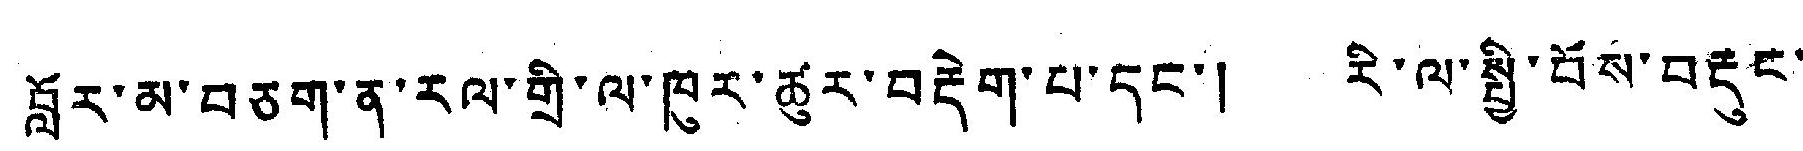བློར་མ་བཅག་ན་རལ་གྱི་ལ་ཁུར་ཚུར་བརྡེག་པ་དང་། རི་ལ་སྤྱི་བོས་བརྡུང་
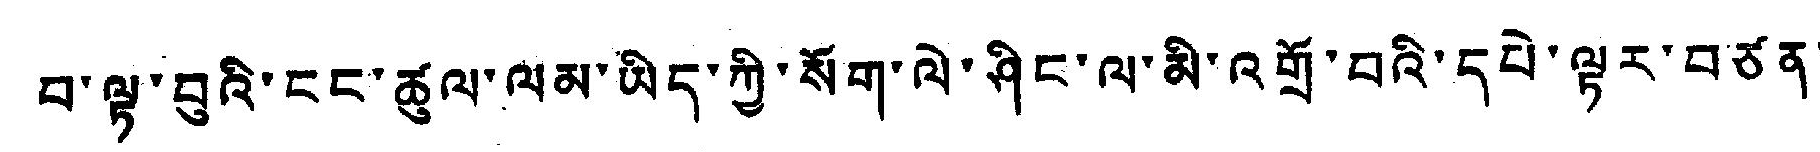བ་ལྟ་བུའི་ངང་ཚུལ་ལམ་ཡིད་ཀྱི་སོག་ལེ་ཤིང་ལ་མི་འགྲོ་བའི་དཔེ་ལྟར་བཙན་
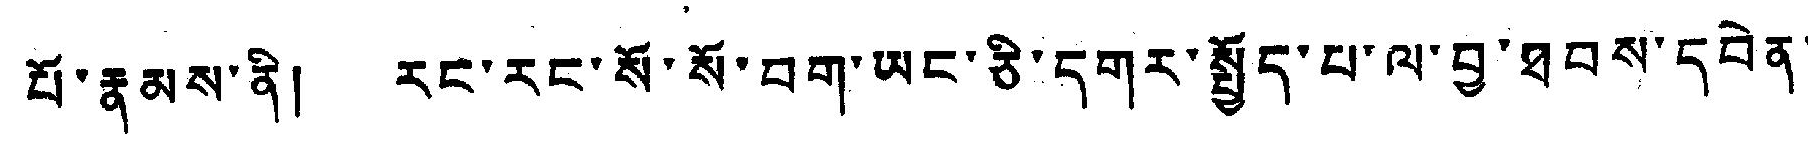པོ་རྣམས་ནི། རང་རང་སོ་སོ་བག་ཡང་ཅི་དགར་སྤྱོད་པ་ལ་བྱ་ཐབས་དབེན་
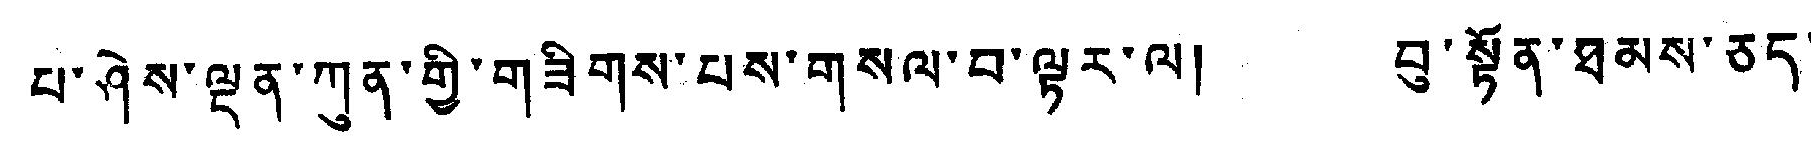པ་ཤེས་ལྡན་ཀུན་གྱི་གཟིགས་པས་གསལ་བ་ལྟར་ལ། བུ་སྟོན་ཐམས་ཅད་
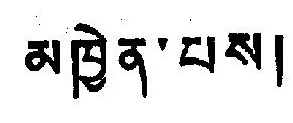མཁྱེན་པས།
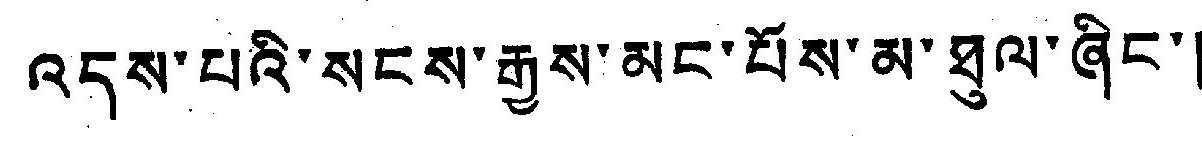འདུས་པའི་སངས་རྒྱས་མང་པོས་མ་ཐུལ་ཞིང་།
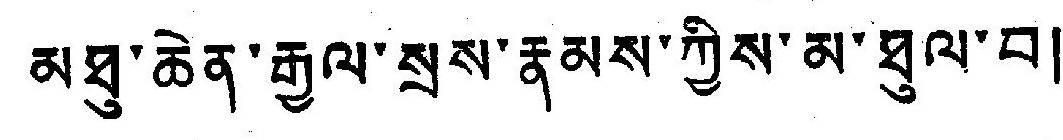མཐུ་ཆེན་རྒྱལ་སྲས་རྣམས་ཀྱིས་མ་ཐུལ་བ།
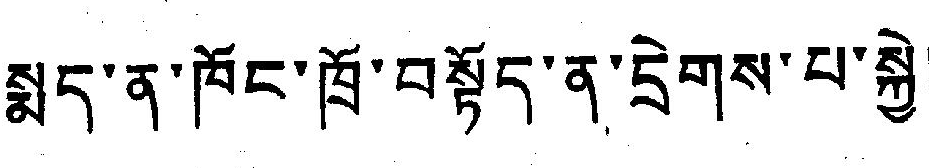སྨད་ན་ཁོང་ཁྲོ་བསྟོད་ན་དྲེགས་པ་སྐྱེ།
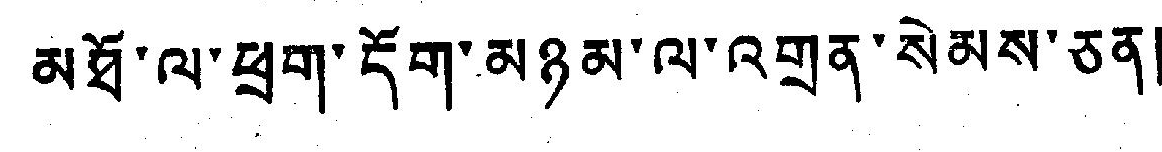མཐོ་ལ་ཕྲག་དོག་མཉམ་ལ་འགྲན་སེམས་ཅན།
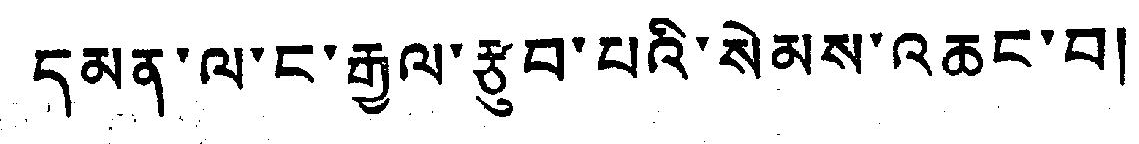དམན་ལ་ང་རྒྱལ་རྩུབ་པའི་སེམས་འཆང་བ།
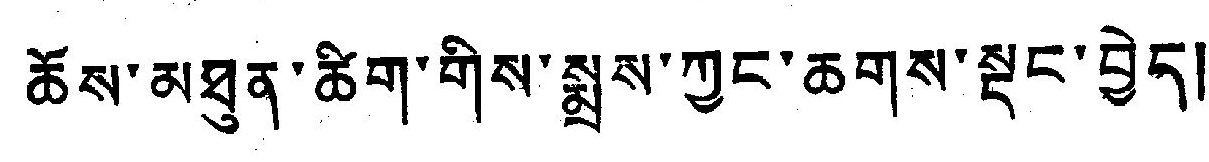ཆོས་མཐུན་ཚིག་གིས་སྨྲས་ཀྱང་ཆགས་སྡང་བྱེད།
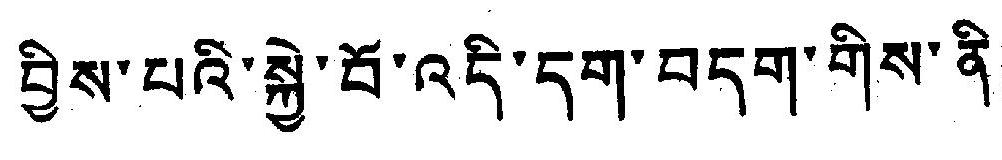བྱིས་པའི་སྐྱེ་བོ་འདི་དག་བདག་གིས་ནི།
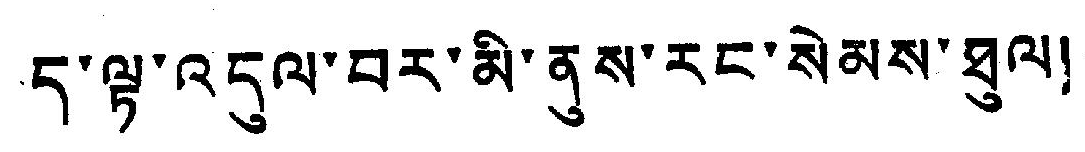ད་ལྟ་འདུལ་བར་མི་ནུས་རང་སེམས་ཐུལ།
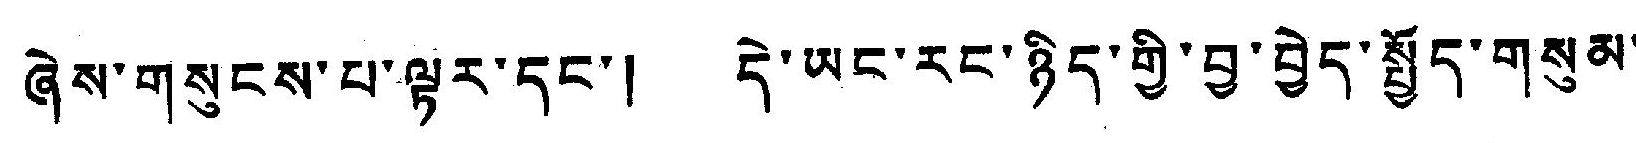ཞེས་གསུངས་པ་ལྟར་དང་། དེ་ཡང་རང་ཉིད་གྱི་བྱ་བྱེད་སྤྱོད་གསུམ་
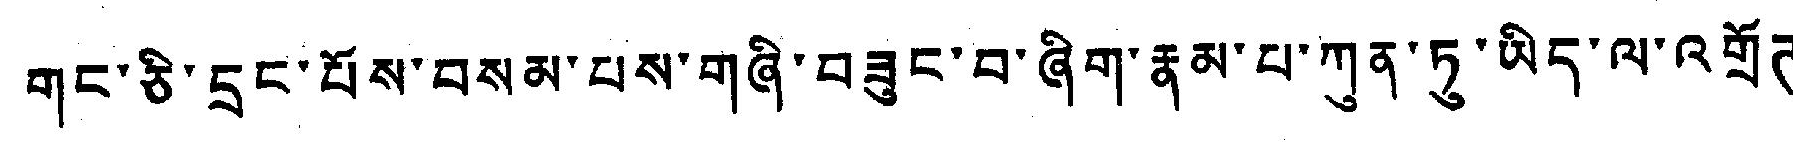གང་ཅི་དྲང་པོས་བསམ་པས་གཞི་བཟུང་བ་ཞིག་རྣམ་པ་ཀུན་ཏུ་ཡིད་ལ་འགྲོཊ་
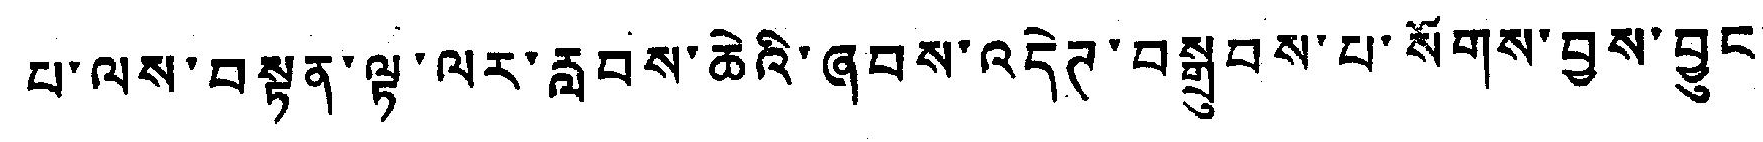པ་ལས་བསྟན་ལྷ་ལར་རླབས་ཆེའི་ཞབས་འདེཊ་བསྒྲུབས་པ་སོགས་བྱས་བྱུང་་
